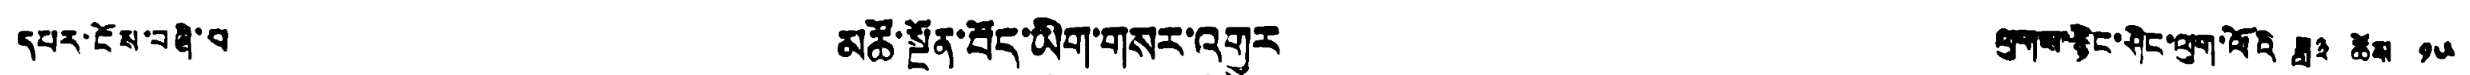དཔར་ངོས་བཞི་པ མཚོ་སྔོན་བོད་ཡིག་གསར་འགྱུར ལུགས་རྙིང་ཤིང་ལུག་ལོའི ཟླ༣ ཚེས ༡༥
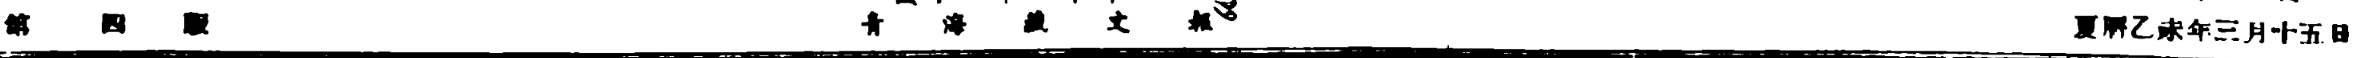第 四 版 青 海 藏 文 報 夏曆乙未年三月十五日
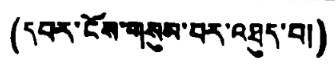(དཔར་ངོས་གསུམ་པར་འཐུད་པ།)
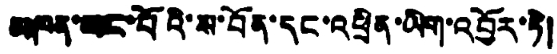མཁན་མང་པོའི་ས་བོན་དང་འཕྲིན་ཡིག་འབྱོར་ཏེ།
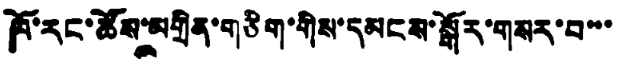ཁོ་རང་ཚོས་མགྲིན་གཅིག་གིས་དམངས་སྒོར་གསར་བ་་་
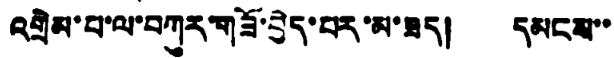འགྲེམ་པ་ལ་བཀུར་གཟོ་བྱེད་པར་མ་ཟད། དམངས་་
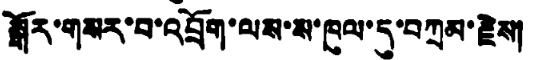སྒོར་གསར་བ་འབྲོག་ལས་ས་ཁུལ་དུ་བཀྲམ་རྗེས།
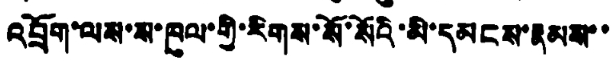འབྲོག་ལས་ས་ཁུལ་གྱི་རིགས་སོ་སོའི་མི་དམངས་རྣམས་་
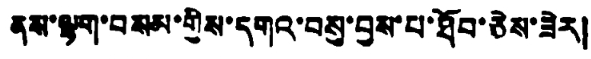ནས་ལྷག་བསམ་གྱིས་དགའ་བསུ་བྱས་པ་ཐོབ་ཅེས་ཟེར།
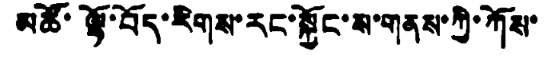མཚོ་ལྷོ་བོད་རིགས་རང་སྐྱོང་ས་གནས་ཀྱི་ཀོས་
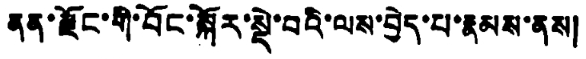ནན་རྫོང་གི་བོང་སྐོར་སྡེ་བའི་ལས་བྱེད་པ་རྣམས་ནས།
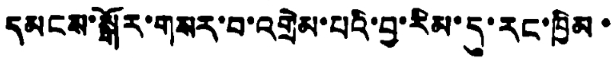དམངས་སྒོར་གསར་བ་འགྲེམ་པའི་བྱ་རིམ་དུ་རང་ཁྱིམ་
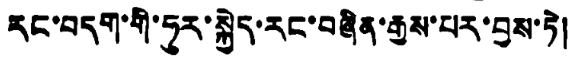རང་བདག་གི་ཧུར་སྐྱེད་རང་བཞིན་རྒྱས་པར་བྱས་ཏེ།
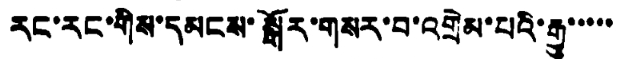རང་རང་གིས་དམངས་སྒོར་གསར་བ་འགྲེམ་པའི་རྒྱ་་་་་
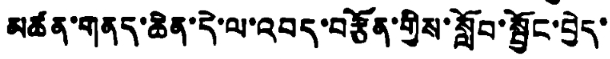མཚན་གནད་ཆེན་དེ་ལ་འབད་བརྩོན་གྱིས་སློབ་སྦྱོང་བྱེད་
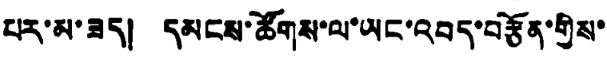པར་མ་ཟད། དམངས་ཚོགས་ལ་ཡང་འབད་བརྩོན་གྱིས་
